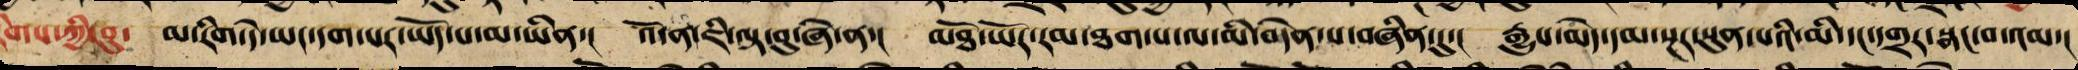རིགས་ཀྱི་བུ་ མ་རིག་དེ་ཡང་དག་པར་ཡོད་པ་མ་ཡིན་། འོ་ན་ཇི་ལྟ་བུ་ཞེ་ན་། མཐོ་ཡོར་རམ་ཐག་པ་ལ་མི་བདེན་པ་བཞིན་དུ་། རྒྱུས་མེད་དམ་སྔར་སུན་པའི་མི་དང་དགྲར་སྣང་བ་འམ་།
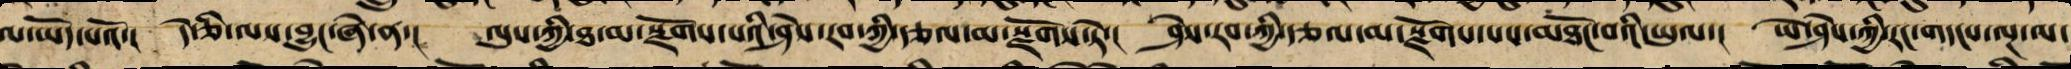ལ་ཡོད་པའོ་། དེ་ཅི་ལས་བྱུང་ཞེ་ན་། ལུས་ཀྱི་ཐ་མ་སྫོགས་པའི་ཤེས་རབ་ཀྱི་རྩལ་མ་སྫོགས་ཏེ་། ཤེས་རབ་ཀྱི་རྩལ་མ་སྫོགས་པས་མཐོང་བའི་ཡུལ་། ཡེ་ཤེས་ཀྱི་རང་གདངས་ལྔ་ལ་
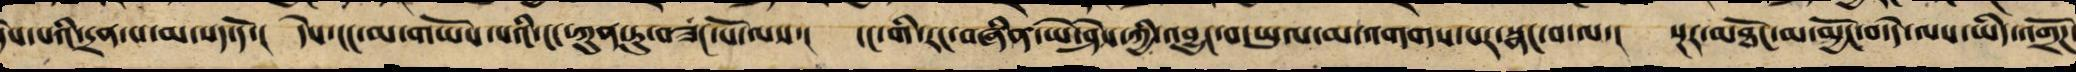ས་པའི་དྲན་པ་མ་སད་དོ་། དེས་ངང་མ་གཡོས་པའི་ངང་ཀུན་ཏུ་བཟང་པོ་ལས་། ངང་གི་རང་བཞིན་ཡེ་ཤེས་ཀྱི་འབྱུང་བ་ཡུལ་མ་འགགས་པར་སྣང་བ་ལ་། སྔར་མཐོང་མ་མྱོང་བ་དེ་ལས་ཡིད་འགྲོཌ་
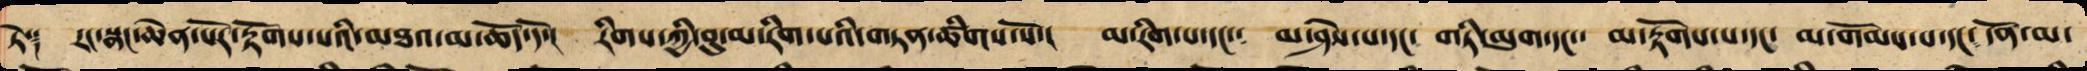ཏེ༑ རང་སྣང་ཆེན་པོར་རྟོགས་པའི་མཐའ་མ་ཆོད་དོ་། རིགས་ཀྱི་བུ་མ་རིག་པའི་གཏན་ཚིགས་སོ་། མ་རིག་པ་དང་་། མ་ཤེས་པ་དང་ གཏི་མུག་དང་་ མ་རྟོགས་པ་དང་ མ་གོམས་པ་དང་ དོན་མ་
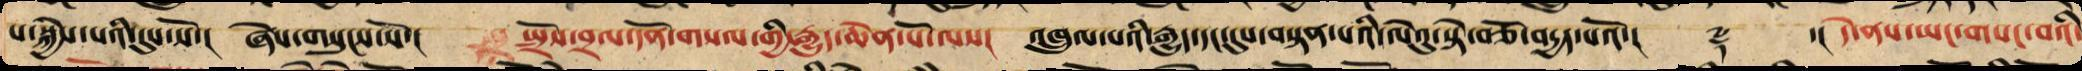པ་སྐྱེས་པའི་དུས་སོ་། ཞེས་གསུངས་སོ་། སྤྲོས་བྲལ་དོན་གསལ་གྱི་རྒྱུད་ཆེན་པོ་ལས་། འཁྲུལ་པའི་རྒྱུད་དང་དུས་བསྟན་པའི་ལེའུ་སྟེ་བཅོ་བདྱད་པའོ་།། ༈ ་། དེ་ནས་ཡང་གསང་བའི་
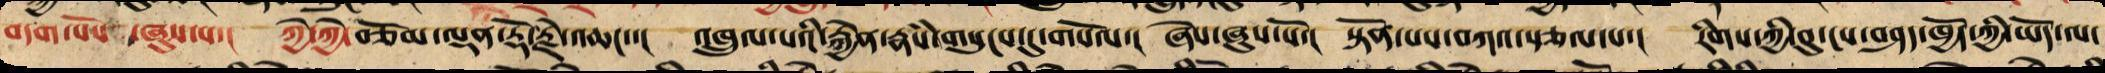བདག་པོས ་ཞུས་པ་། ཀྱེ་ཀྱེ་བཅོམ་ལྡན་རྡོ་རྗེ་འཆང་་། འཁྲུལ་པའི་རྐྱེན་རྣཾས་གསུངས་དུ་གསོལ་། ཞེས་ཞུས་སོ་། སྟོན་པས་བཀའ་སྩལ་པ་། རིགས་ཀྱི་བུ་ངས་བཤད་ཁྱོད་ཀྱི་ཡིད་ལ་
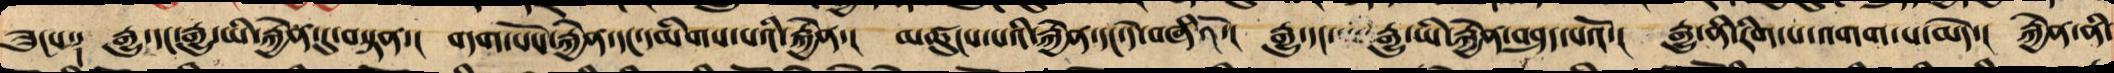ཟུངས༑ རྒྱུ་དང་རྒྱུ་ཡི་རྐྱེན་དུ་བསྟན་། བདག་པོས་རྐྱེན་དང་དམིགས་པའི་རྐྱེན་། མཚུངས་པའི་རྐྱེན་དང་དེ་བཞིའོ་། རྒྱུ་དང་ རྒྱུ་ཡི་རྐྱེན་བཤད་པའོ་། རྒྱུ་ནི་རིག་པ་འགག་པ་མེད་། རྐྱེན་ནི་
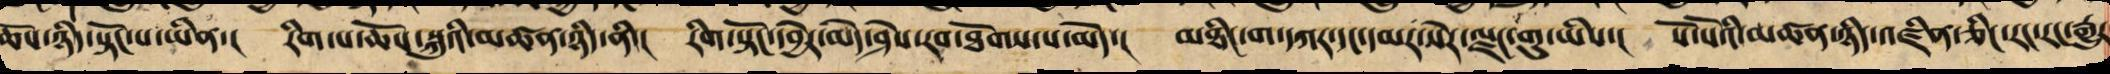ཆོས་ཉིད་སྟོང་པ་ཡིན་། རིག་པ་ཆོས་སྐུའི་མཚན་ཉིད་ནི་། རིག་སྟོང་དབྱེར་མེད་ཤེས་རབ་ཐོགས་པ་མེད་། མཐིང་ག་དཀར་དང་དམར་སེར་ལྗང་གུ་ཡིས་། སོ་སོའི་མཚན་ཉིད་འཛིན་ཅིང་རང་རང་རྒྱུར
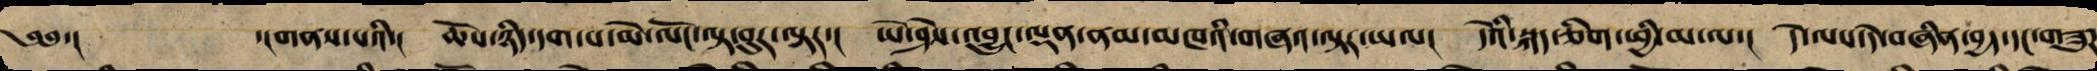༄༅་། ་།གནས་པའི་། ཆོས་ཉིད་དག་པ་མེ་ལོང་ལྟ་བུར་ལྟར་། ཡེ་ཤེས་འབྱུང་ལྡན་ནམ་མཁའི་གཞའ་ལྟར་ཡལ་། དེའི་སྐད་ཅིག་ཕྱི་མ་ལ་། དེ་ལས་དེ་བཞིན་བྱད་དང་གཟུཌ
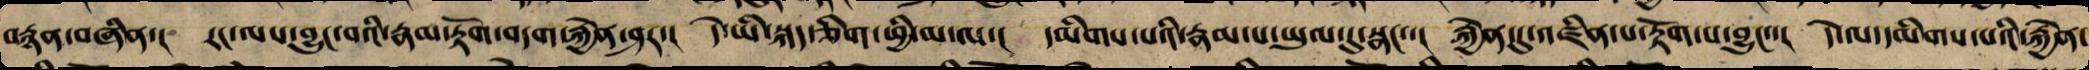བརྙན་བཞིན་། རང་ལས་བྱུང་བའི་རྣམ་རྟོག་བདག་རྐྱེན་ཤར་། དེ་ཡི་སྐད་ཅིག་ཕྱི་མ་ལ་། དམིགས་པའི་རྣམ་པ་ཡུལ་དུ་སྣང་་། རྐྱེན་དུ་འཛིན་པའི་རྟོག་པ་བྱུང་་། དེ་ལ་དམིགས་པའི་རྐྱེན་
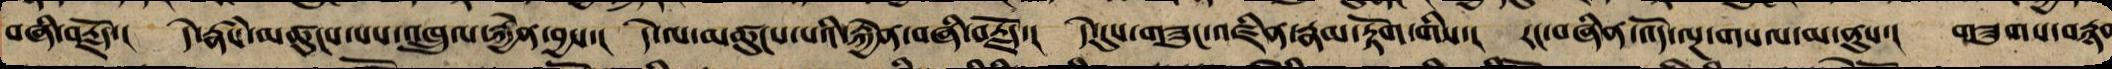བཞི་བརྗོད་། དེ་རྣཾས་མཚུངས་པས་འཁྲུལ་རྐྱེན་བྱས་། དེ་ལ་མཚུངས་པའི་རྐྱེན་བཞི་བརྗོད་། དེ་དུས་གཟུང་འཛིན་རྣམ་རྟོག་གིས་། རང་བཞིན་འོད་ལྔ་གསལ་མ་ནུས་། གཟུགས་བརྙན
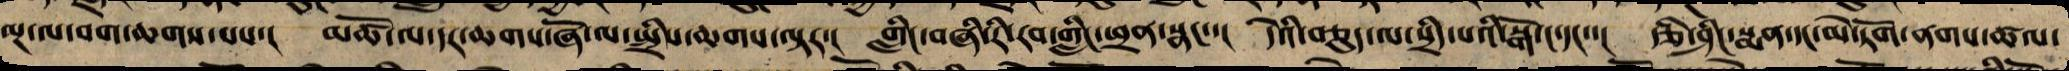ལྔ་ལ་བག་ཆགས་པས་། མཚོ་ལ་དར་ཆགས་ཞོ་ལ་སྤྲིས་ཆགས་ལྟར་། གླིང་བཞི་རི་རབ་གླིང་ཕྲན་སྣང་་། དེའི་བཅུད་ལ་སྲིད་པའི་སྒོ་ང་དང་་། རྩི་ཤིང་སྨན་དང་མེ་ཏོག་ནགས་ཚལ་
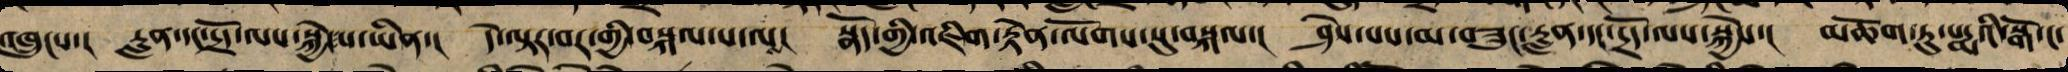འཁྲུངས་། རླན་དང་དྲོད་ལས་སྐྱེ་པ་ཡིན་། དེ་ལྟར་བར་གྱི་བསྐལ་པ་ལ། སྣོད་གྱི་འཇིག་རྟེན་ལོགས་སུ་བསྐལ་། ཤེས་པས་མ་བཟུང་རླན་དང་དྲོད་ལས་སྐྱེས་། མཆོག་ཏུ་པདྨའི་སྒོ་ང་
